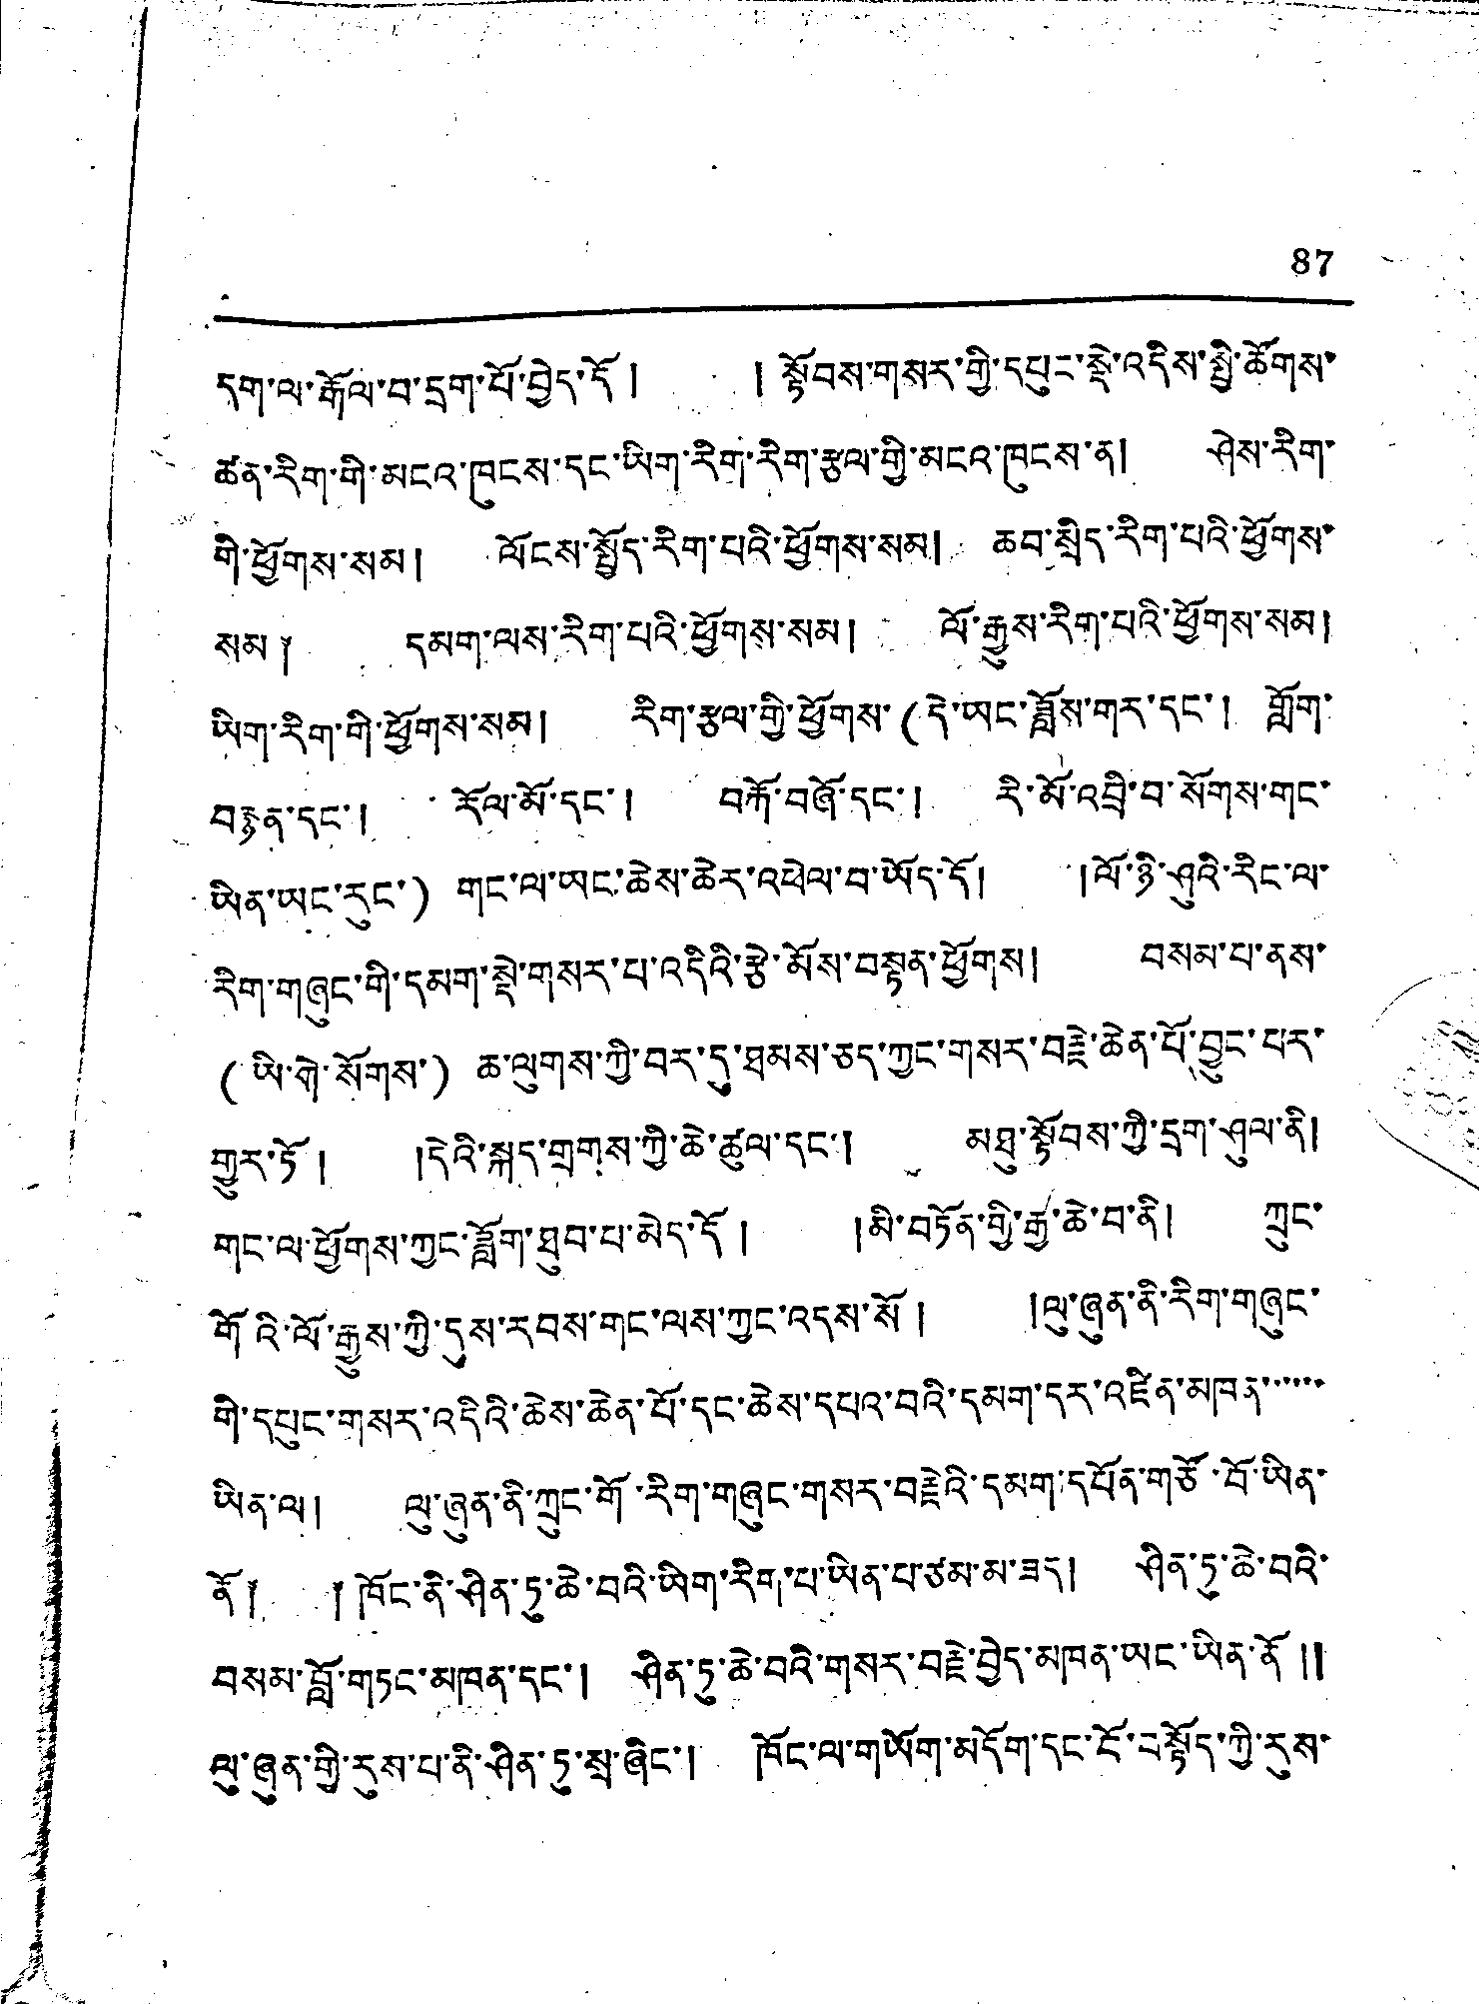87
དག་ལ་རྒོལ་བ་དྲག་པོ་བྱེད་དོ། །སྟོབས་གསར་གྱི་དཔུང་སྡེ་འདིས་སྤྱི་ཚོགས་
ཚན་རིག་གི་མངའ་ཁུངས་དང་ཡིག་རིག་རིག་རྩལ་གྱི་མངའ་ཁུངས་ན། ཤེས་རིག་
གི་ཕྱོགས་སམ། ལོངས་སྤྱོད་རིག་པའི་ཕྱོགས་སམ། ཆབ་སྲིད་རིག་པའི་ཕྱོགས་
སམ༐ དམག་ལས་རིག་པའི་ཕྱོགས་སམ། ལོ་རྒྱུས་རིག་པའི་ཕྱོགས་སམ།
ཡིག་རིག་གི་ཕྱོགས་སམ། རིག་རྩལ་གྱི་ཕྱོགས་(དེ་ཡང་ཟློས་གར་དང་། གློག་
བརྙན་དང་། རོལ་མོ་དང་། བརྐོ་བཞོ་དང་། རི་མོ་འབྲི་བ་སོགས་གང་
ཡིན་ཡང་རང་) གང་ལ་ཡང་ཆེས་ཆེར་འཕེལ་བ་ཡོད་དོ། །ལོ་ཉི་ཤུའི་རིང་ལ་
རིག་གཞུང་གི་དམག་སྟེ་གསར་པ་འདིའི་རྩེ་མོས་བསྟན་ཕྱོགས། བསམ་པ་ནས་
(ཡི་གེ་སོགས་) ཆ་ལུགས་ཀྱི་བར་དུ་ཐམས་ཅད་ཀྱང་གསར་བརྗེ་ཆེན་པོ་བྱུང་པར་
གྱུར་ཏོ། །དེའི་སྐད་གྲགས་ཀྱི་ཆེ་ཚུལ་དང་། མཐུ་སྟོབས་ཀྱི་དྲུག་ཤུལ་ནི།
གང་ལ་ཕྱོགས་ཀྱང་ཟློག་ཐུབ་པ་མེད་དོ ། །མི་བཏོན་གྱི་རྒྱ་ཆེ་བ་ནི། ཀྲུང་
གོའི་ལོ་རྒྱུས་ཀྱི་དུས་རབས་གང་ལས་ཀྱང་འདུས་སོ ། །ལུ་ཞུན་ནི་རིག་གཞུང་
གི་དཔུང་གསར་འདིའི་ཆེས་ཆེན་པོ་དང་ཆེས་དཔའ་བའི་དམག་དར་འཛིན་མཁན་་་་་་
ཡིན་ལ། ལུ་ཞུན་ནི་ཀྲུང་གོ་རིག་གཞུང་གསར་བརྗེའི་དམག་དཔོན་གཙོ་བོ་ཡིན་
ནོ༐ ༐ཁོང་ནི་ཤིན་ཏུ་ཆེ་བའི་ཡིག་རིག་པ་ཡིན་པ་ཙམ་མ་ཟད། ཤིན་ཏུ་ཆེ་བའི་
བསམ་བློ་གཏང་མཁན་དང་། ཤིན་ཏུ་ཆེ་བའི་གསར་བརྗེ་བྱེད་མཁན་ཡང་ཡིན་ནོ །།
ལུ་ཞུན་གྱི་རུས་པ་ནི་ཤིན་ཏུ་སྲ་ཞིང་། ཁོང་ལ་གཡོག་མདོག་དང་ངོ་བསྟོད་ཀྱི་རུས་
